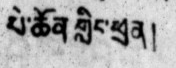པེ་ཆོན་གླིང་ཕྲན།
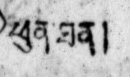ཕུན་ཐན།
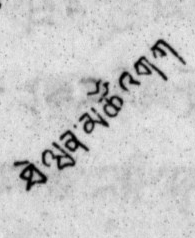ཐེ་ཝན་མཚོ་འགག
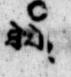ཐེ་པེ།
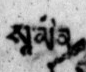སཱ་མིན།
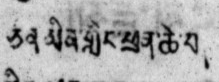ཅིན་མིན་གླིང་ཕྲན་ཆེ་བ།ཅི་མིན་གླིང་ཕྲན་ཆེ་བ།
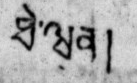ཐེ་ཝན།
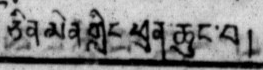ཅིན་མིན་གླིང་ཕྲན་ཆུང་བ།
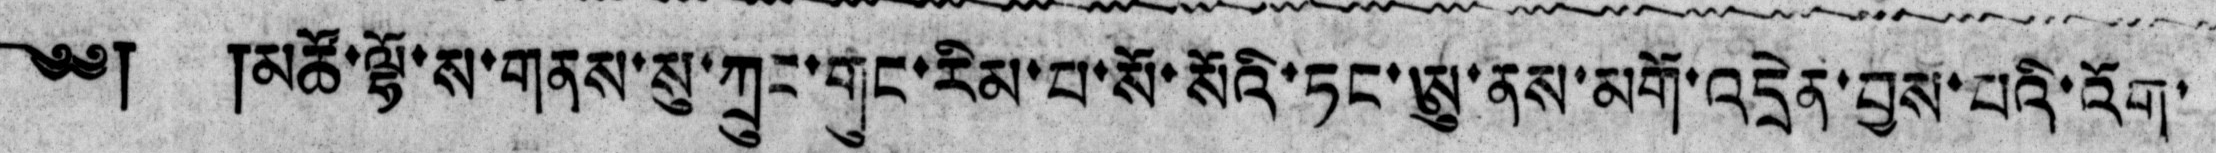༄༅། །མཚོ་ལྷོ་ས་གནས་སུ་ཀྲུང་གུང་རིམ་པ་སོ་སོའི་ཏང་ཨུ་ནས་མགོ་འདྲེན་བྱས་པའི་འོག་
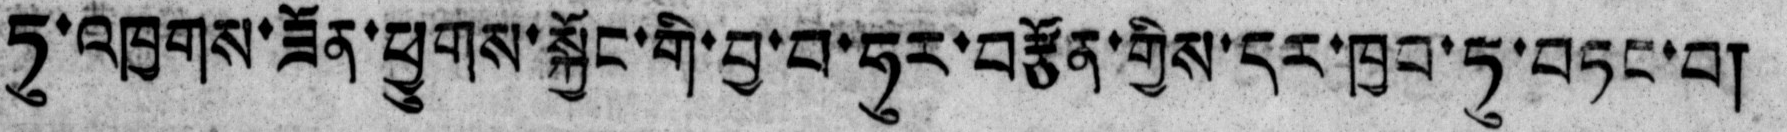ཏུ་འཁྱགས་ཟོན་ཕྱུགས་སྐྱོང་གི་བྱ་བ་ཧུར་བརྩོན་གྱིས་དར་ཁྱབ་ཏུ་བཏང་བ།
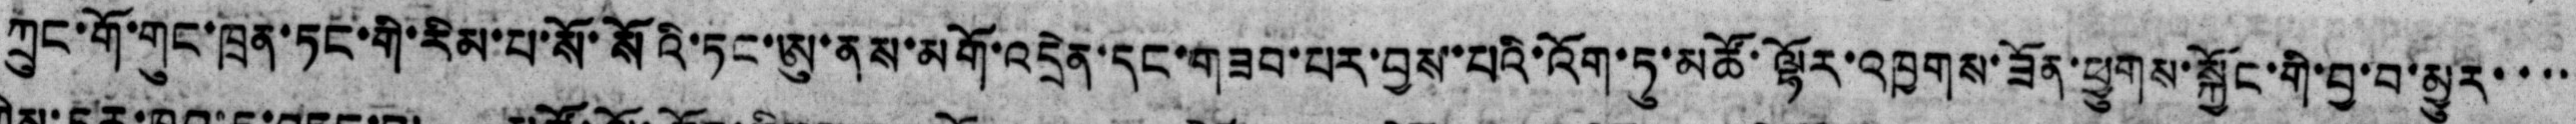ཀྲུང་གོ་གུང་ཁྲན་ཏང་གི་རིམ་པ་སོ་སོའི་ཏང་ཨུ་ནས་མགོ་འདྲེན་དང་གཟབ་པར་བྱས་པའི་འོག་ཏུ་མཚོ་ལྷོར་འཁྱགས་ཟོན་ཕྱུགས་སྐྱོང་གི་བྱ་བ་མྱུར་་་
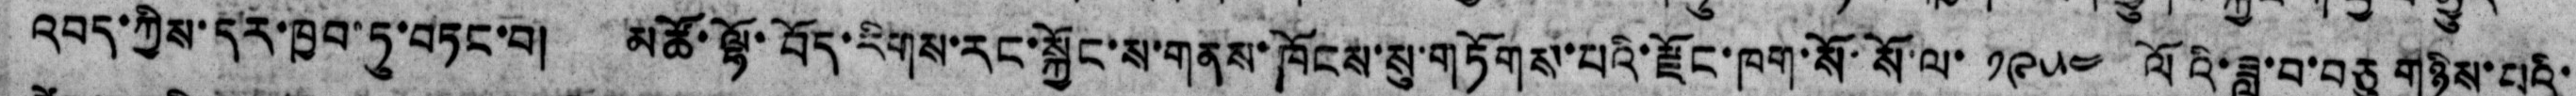འབད་ཀྱིས་དར་ཁྱབ་ཏུ་བཏང་བ། མཚོ་ལྷོ་བོད་རིགས་རང་སྐྱོང་ས་གནས་ཁོངས་སུ་གཏོགས་པའི་རྫོང་ཁག་སོ་སོ་ལ་ ༡༩༥༤ ལོའི་ཟླ་བ་བཅུ གཉིས་པའི་
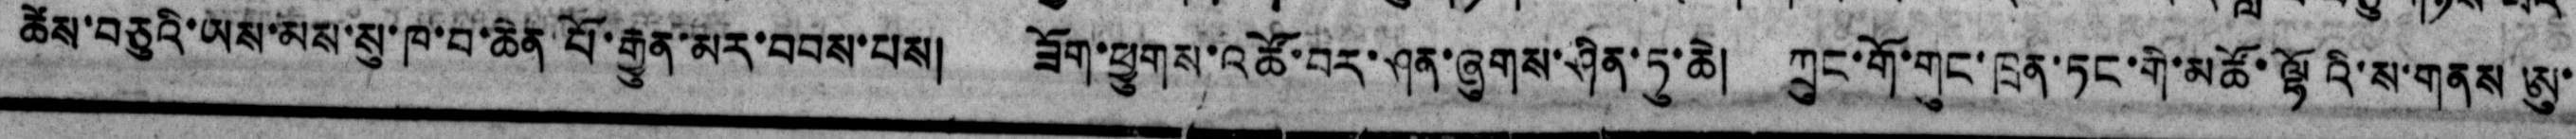ཚེས་བཅུའི་ཡས་མས་སུ་ཁ་བ་ཆེན་པོ་རྒྱུན་མར་བབས་པས། ཟོག་ཕྱུགས་འཚོ་བར་ཤན་ཞུགས་ཤིན་ཏུ་ཆེ། ཀྲུང་གོ་གུང་ཁྲན་ཏང་གི་མཚོ་ལྷོའི་ས་གནས ཨུ་
